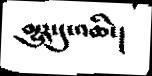མྱུར་དུ་འཆི་།
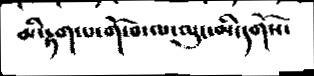མི་རྟག་པ་གོ་བ་ལ་ལུང་མི་དགོས་
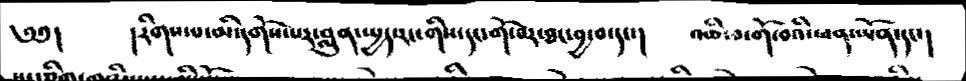༄༅།  །རིགས་པ་མི་དགོས་པར་བླུན་སྤྱད་རང་གིས་དང་གོ་བར་ཐང་བྱ་བ་དང་།  འཆི་བ་གོ་བའི་ཕན་ཡོན་དང་།
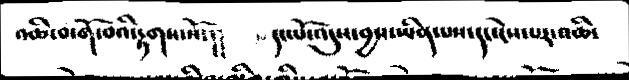འཆི་བ་གོ་བའི་རྟགས་སོ་།།   དང་པོ་འདུས་བྱས་ཡིན་པས་དང་ངེས་པར་འཆི་
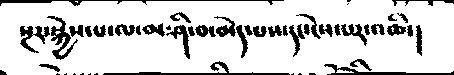སྔར་སྐྱེས་པ་ལ་མ་ཤི་བ་མེད་པས་དང་ངེས་པར་འཆི་།
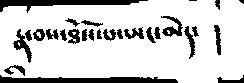རྣ་བས་ཐོས་པ་ཡང་མེད་   །
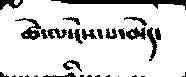ཚེ་ལ་ངེས་པ་མེད་
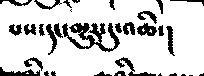པས་དང་མྱུར་དུ་འཆི་།
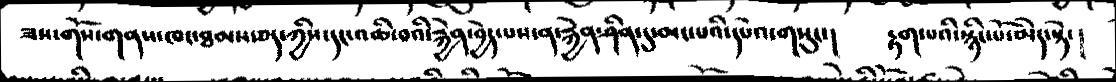ཟས་གོས་གནས་ཁང་ཐམས་ཅད་ཀྱིས་དང་འཆི་བའི་རྐྱེན་བྱེད་པས་ན་རྐྱེན་ཤིན་དུ་མང་པའི་དཔེའ་གསུང་།  རྟག་པའི་སྙིང་པོ་མེད་སྟེ་།
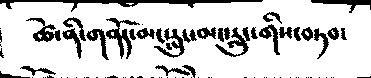ཚེ་ནི་གནོད་མ་སླུང་མ་སླུང་གིས་བཏབ་
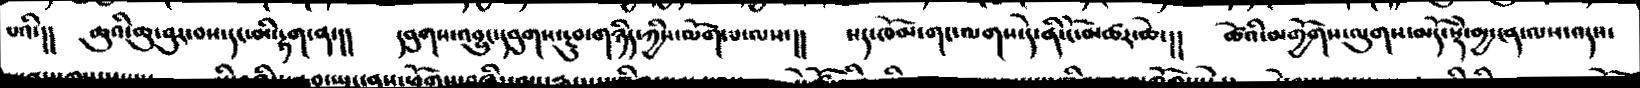པའི་།།  ཆུའི་ཆུ་བུར་བས་དང་མི་རྟག་ན་།།   དབུགས་འབྱུང་དབུགས་རྔུབ་གཉིད་ཀྱིས་ལོག་པ་ལས་།།  སད་ཁོམ་གང་ལགས་དེ་ནི་ངོ་མཚར་ཆེ་།།  ཚེའི་མགྱོགས་ལུགས་མདོ་སྡེ་མྱ་ངན་ལས་འདས་
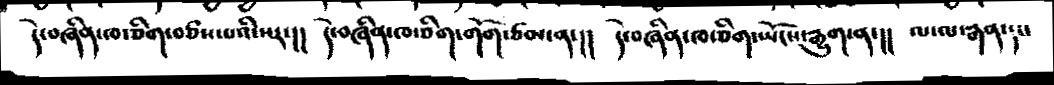དེ་བཞིན་ཁ་ཅིག་བཙས་པའི་སར་།།  དེ་བཞིན་ཁ་ཅིག་གོག་ཙམ་ན་།།  དེ་བཞིན་ཁ་ཅིག་ཡོངས་རྒྱུག་ན་།།  ལ་ལ་རྒན་དང་
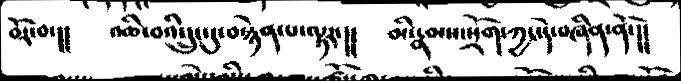བོར་བ་།།   འཆི་བའི་དྲུང་དུ་བསྙེན་པ་ལྟར་།།  མི་རྣམས་སྲོག་ཀྱང་དེ་བཞིན་ནོ་།།
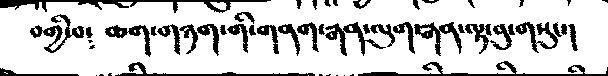བགྱི་བ༴   ཆག་གཉག་གི་གནག་རྒན་ལུག་རྒན་ལྟ་བུ་གསུང་།
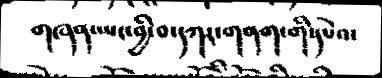གཞན་ཡང་བྱི་བ་དཀར་གནག་གི་དཔེའ་
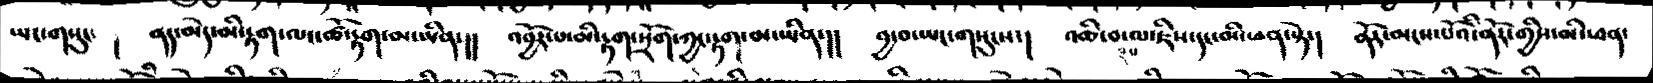ཡང་གསུང་  །  ནད་མེད་མི་རྟག་ལང་ཚོ་རྟག་མ་ཡིན་།།  འབྱོར་པ་མི་རྟག་སྲོག་ཀྱང་རྟག་མ་ཡིན་།།  བྱ་བ་ཡང་གསུངས་།  འཆི་བ་ལ་ཇིས་དང་མི་ཕན་སྟེ་།  ནོར་མངས་པོའི་ནོར་གྱིས་མི་ཕན་
